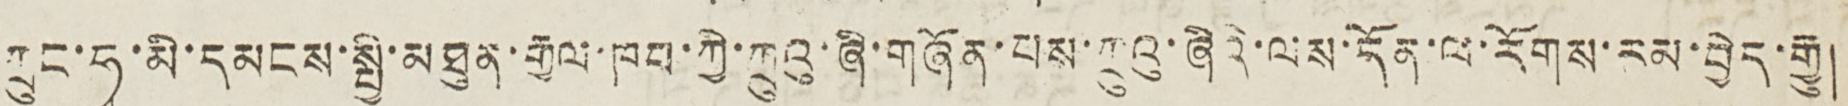ཀྲུང་ཧྭ་མི་དམངས་སྤྱི་མཐུན་རྒྱལ་ཁབ་ཀྱི་ཀྲུའུ་ཞི་གཞོན་པས་ཀྲུའུ་ཞིའི་ལས་དོན་ལ་རོགས་རམ་བྱེད་རྒྱུ།
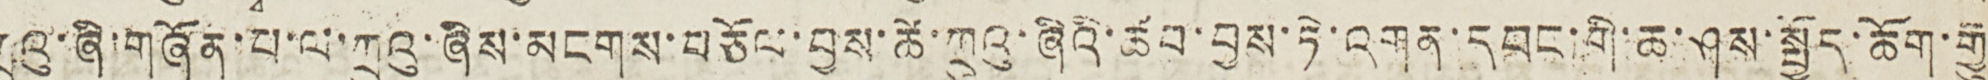ཀྲུའུ་ཞི་གཞོན་པ་ལ་ཀྲུའུ་ཞིས་མངགས་བཅོལ་བྱས་ཚེ་ཀྲུའུ་ཞིའི་ཚབ་བྱས་ཏེ་འགན་དབང་གི་ཆ་ཤས་སྤྱོད་ཆོག་རྒྱུ།
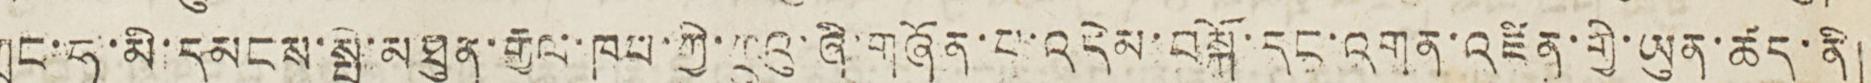ཀྲུང་ཧྭ་མི་དམངས་སྤྱི་མཐུན་རྒྱལ་ཁབ་ཀྱི་ཀྲུའུ་ཞི་གཞོན་པ་འདེམ་བསྐོ་དང་འགན་འཛིན་གྱི་ཡུན་ཚད་ནི།
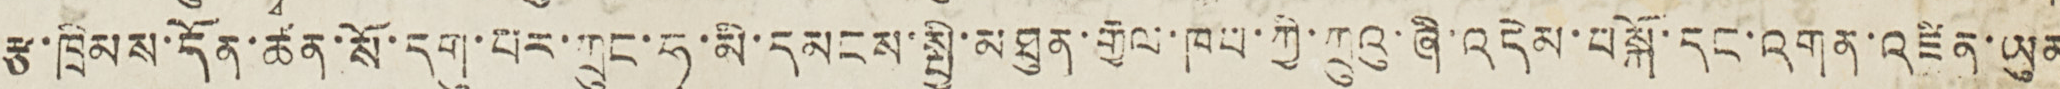རྩ་ཁྲིམས་དོན་ཚན་སོ་དགུ་པར་ཀྲུང་ཧྭ་མི་དམངས་སྤྱི་མཐུན་རྒྱལ་ཁབ་ཀྱི་ཀྲུའུ་ཞི་འདེམ་བསྐོ་དང་འགན་འཛིན་ཡུན
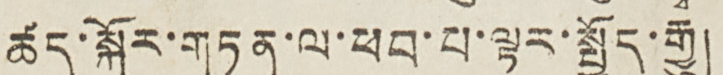ཚད་སྐོར་གཏན་ལ་ཕབ་པ་ལྟར་སྤྱོད་རྒྱུ།
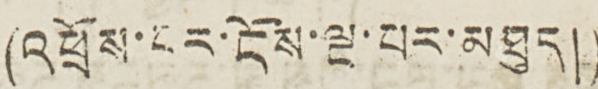(འཕྲོས་པར་ངོས་ལྔ་པར་མཐུད།)
